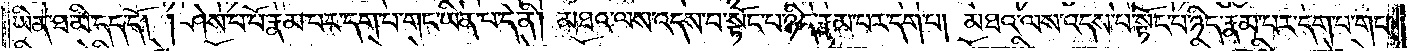ཡིན་ཐ་མི་དད་དོ། །ཤེས་པ་པོ་རྣམ་པར་དག་པ་གང་ཡིན་པ་དེ་ནི། མཐའ་ལས་འདས་པ་སྟོང་པ་ཉིད་རྣམ་པར་དག་པ། མཐའ་ལས་འདས་པ་སྟོང་པ་ཉིད་རྣམ་པར་དག་པ་གང་
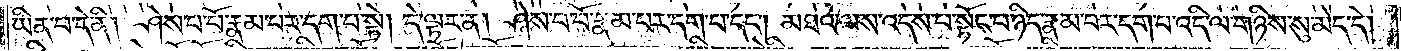ཡིན་པ་དེ་ནི། ཤེས་པ་པོ་རྣམ་པར་དག་པ་སྟེ། དེ་ལྟར་ན། ཤེས་པ་པོ་རྣམ་པར་དག་པ་དང༌། མཐའ་ལས་འདས་པ་སྟོང་པ་ཉིད་རྣམ་པར་དག་པ་འདི་ལ་གཉིས་སུ་མེད་དེ།
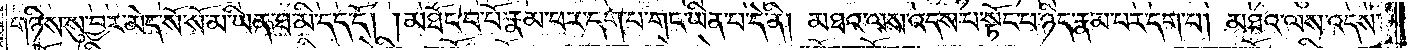གཉིས་སུ་བྱར་མེད་སོ་སོ་མ་ཡིན་ཐ་མི་དད་དོ། །མཐོང་བ་པོ་རྣམ་པར་དག་པ་གང་ཡིན་པ་དེ་ནི། མཐའ་ལས་འདས་པ་སྟོང་པ་ཉིད་རྣམ་པར་དག་པ། མཐའ་ལས་འདས་
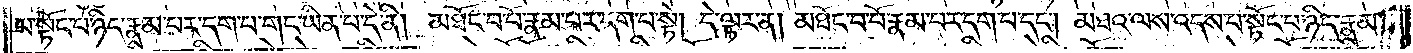པ་སྟོང་པ་ཉིད་རྣམ་པར་དག་པ་གང་ཡིན་པ་དེ་ནི། མཐོང་བ་པོ་རྣམ་པར་དག་པ་སྟེ། དེ་ལྟར་ན། མཐོང་བ་པོ་རྣམ་པར་དག་པ་དང༌། མཐའ་ལས་འདས་པ་སྟོང་པ་ཉིད་རྣམ་
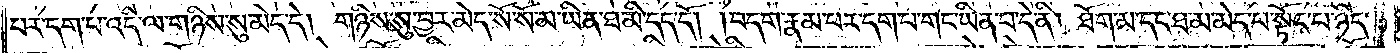པར་དག་པ་འདི་ལ་གཉིས་སུ་མེད་དེ། གཉིས་སུ་བྱར་མེད་སོ་སོ་མ་ཡིན་ཐ་མི་དད་དོ། །བདག་རྣམ་པར་དག་པ་གང་ཡིན་པ་དེ་ནི། ཐོག་མ་དང་ཐ་མ་མེད་པ་སྟོང་པ་ཉིད་
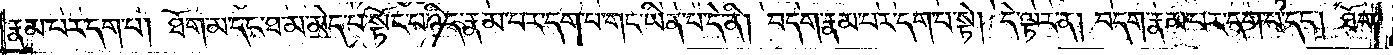རྣམ་པར་དག་པ། ཐོག་མ་དང་ཐ་མ་མེད་པ་སྟོང་པ་ཉིད་རྣམ་པར་དག་པ་གང་ཡིན་པ་དེ་ནི། བདག་རྣམ་པར་དག་པ་སྟེ། དེ་ལྟར་ན། བདག་རྣམ་པར་དག་པ་དང༌། ཐོག་
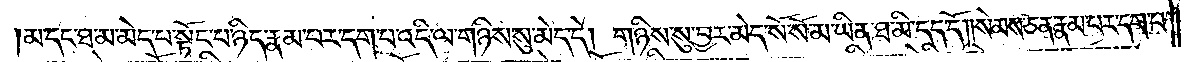མ་དང་ཐ་མ་མེད་པ་སྟོང་པ་ཉིད་རྣམ་པར་དག་པ་འདི་ལ་གཉིས་སུ་མེད་དེ། གཉིས་སུ་བྱར་མེད་སོ་སོ་མ་ཡིན་ཐ་མི་དད་དོ། །སེམས་ཅན་རྣམ་པར་དག་པ་
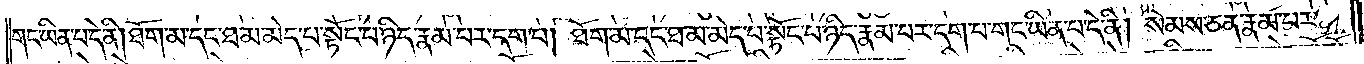གང་ཡིན་པ་དེ་ནི། ཐོག་མ་དང་ཐ་མ་མེད་པ་སྟོང་པ་ཉིད་རྣམ་པར་དག་པ། ཐོག་མ་དང་ཐ་མ་མེད་པ་སྟོང་པ་ཉིད་རྣམ་པར་དག་པ་གང་ཡིན་པ་དེ་ནི། སེམས་ཅན་རྣམ་པར་
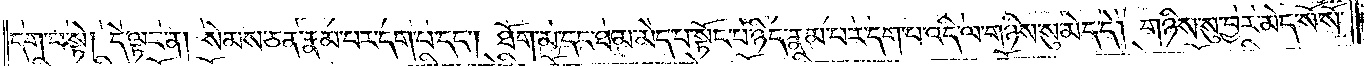དག་པ་སྟེ༑ དེ་ལྟར་ན། སེམས་ཅན་རྣམ་པར་དག་པ་དང༌། ཐོག་མ་དང་ཐ་མ་མེད་པ་སྟོང་པ་ཉིད་རྣམ་པར་དག་པ་འདི་ལ་གཉིས་སུ་མེད་དེ། གཉིས་སུ་བྱར་མེད་སོ་སོ་
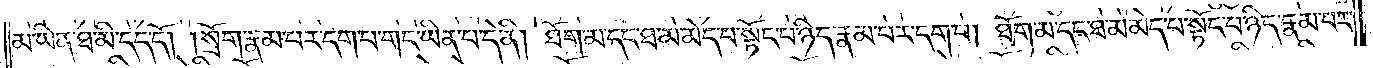མ་ཡིན་ཐ་མི་དད་དོ། །སྲོག་རྣམ་པར་དག་པ་གང་ཡིན་པ་དེ་ནི། ཐོག་མ་དང་ཐ་མ་མེད་པ་སྟོང་པ་ཉིད་རྣམ་པར་དག་པ། ཐོག་མ་དང་ཐ་མ་མེད་པ་སྟོང་པ་ཉིད་རྣམ་པར་
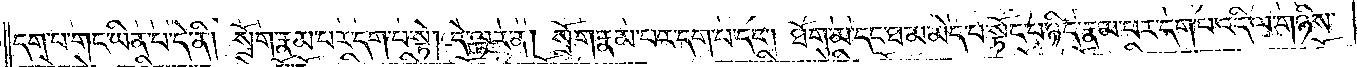དག་པ་གང་ཡིན་པ་དེ་ནི། སྲོག་རྣམ་པར་དག་པ་སྟེ། དེ་ལྟར་ན། སྲོག་རྣམ་པར་དག་པ་དང༌། ཐོག་མ་དང་ཐ་མ་མེད་པ་སྟོང་པ་ཉིད་རྣམ་པར་དག་པ་འདི་ལ་གཉིས་
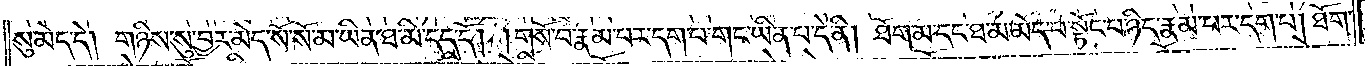སུ་མེད་དེ། གཉིས་སུ་བྱར་མེད་སོ་སོ་མ་ཡིན་ཐ་མི་དད་དོ། །གསོ་བ་རྣམ་པར་དག་པ་གང་ཡིན་པ་དེ་ནི། ཐོག་མ་དང་ཐ་མ་མེད་པ་སྟོང་པ་ཉིད་རྣམ་པར་དག་པ། ཐོག་
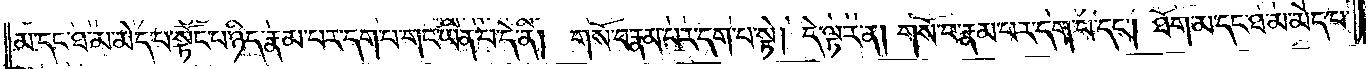མ་དང་ཐ་མ་མེད་པ་སྟོང་པ་ཉིད་རྣམ་པར་དག་པ་གང་ཡིན་པ་དེ་ནི། གསོ་བ་རྣམ་པར་དག་པ་སྟེ། དེ་ལྟར་ན། གསོ་བ་རྣམ་པར་དག་པ་དང༌། ཐོག་མ་དང་ཐ་མ་མེད་པ་
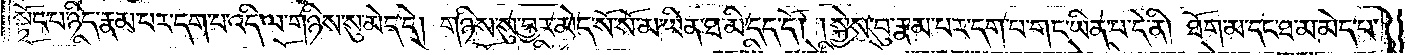སྟོང་པ་ཉིད་རྣམ་པར་དག་པ་འདི་ལ་གཉིས་སུ་མེད་དེ། གཉིས་སུ་བྱར་མེད་སོ་སོ་མ་ཡིན་ཐ་མི་དད་དོ། །སྐྱེས་བུ་རྣམ་པར་དག་པ་གང་ཡིན་པ་དེ་ནི། ཐོག་མ་དང་ཐ་མ་མེད་པ་
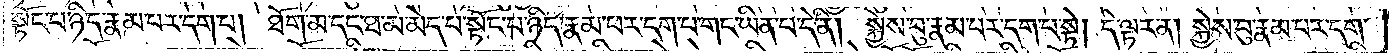སྟོང་པ་ཉིད་རྣམ་པར་དག་པ། ཐོག་མ་དང་ཐ་མ་མེད་པ་སྟོང་པ་ཉིད་རྣམ་པར་དག་པ་གང་ཡིན་པ་དེ་ནི། སྐྱེས་བུ་རྣམ་པར་དག་པ་སྟེ། དེ་ལྟར་ན། སྐྱེས་བུ་རྣམ་པར་དག་
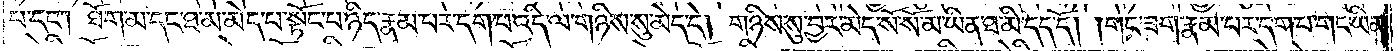པ་དང༌། ཐོག་མ་དང་ཐ་མ་མེད་པ་སྟོང་པ་ཉིད་རྣམ་པར་དག་པ་འདི་ལ་གཉིས་སུ་མེད་དེ། གཉིས་སུ་བྱར་མེད་སོ་སོ་མ་ཡིན་ཐ་མི་དད་དོ། །གང་ཟག་རྣམ་པར་དག་པ་གང་ཡིན་
